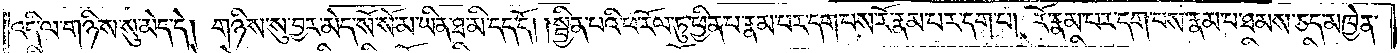འདི་ལ་གཉིས་སུ་མེད་དེ། གཉིས་སུ་བྱར་མེད་སོ་སོ་མ་ཡིན་ཐ་མི་དད་དོ། །སྦྱིན་པའི་ཕ་རོལ་ཏུ་ཕྱིན་པ་རྣམ་པར་དག་པས་རོ་རྣམ་པར་དག་པ། རོ་རྣམ་པར་དག་པས་རྣམ་པ་ཐམས་ཅད་མཁྱེན་
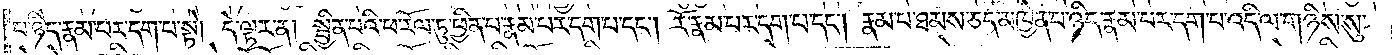པ་ཉིད་རྣམ་པར་དག་པ་སྟེ། དེ་ལྟར་ན། སྦྱིན་པའི་ཕ་རོལ་ཏུ་ཕྱིན་པ་རྣམ་པར་དག་པ་དང༌། རོ་རྣམ་པར་དག་པ་དང༌། རྣམ་པ་ཐམས་ཅད་མཁྱེན་པ་ཉིད་རྣམ་པར་དག་པ་འདི་ལ་གཉིས་སུ་
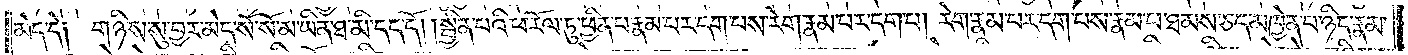མེད་དེ༑ གཉིས་སུ་བྱར་མེད་སོ་སོ་མ་ཡིན་ཐ་མི་དད་དོ། །སྦྱིན་པའི་ཕ་རོལ་ཏུ་ཕྱིན་པ་རྣམ་པར་དག་པས་རེག་རྣམ་པར་དག་པ། རེག་རྣམ་པར་དག་པས་རྣམ་པ་ཐམས་ཅད་མཁྱེན་པ་ཉིད་རྣམ་
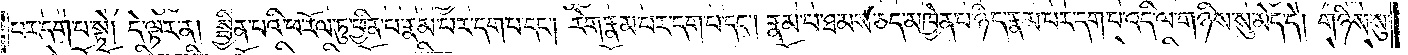པར་དག་པ་སྟེ། དེ་ལྟར་ན། སྦྱིན་པའི་ཕ་རོལ་ཏུ་ཕྱིན་པ་རྣམ་པར་དག་པ་དང༌། རེག་རྣམ་པར་དག་པ་དང༌། རྣམ་པ་ཐམས་ཅད་མཁྱེན་པ་ཉིད་རྣམ་པར་དག་པ་འདི་ལ་གཉིས་སུ་མེད་དེ། གཉིས་སུ་
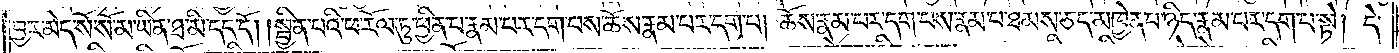བྱར་མེད་སོ་སོ་མ་ཡིན་ཐ་མི་དད་དོ། །སྦྱིན་པའི་ཕ་རོལ་ཏུ་ཕྱིན་པ་རྣམ་པར་དག་པས་ཆོས་རྣམ་པར་དག་པ། ཆོས་རྣམ་པར་དག་པས་རྣམ་པ་ཐམས་ཅད་མཁྱེན་པ་ཉིད་རྣམ་པར་དག་པ་སྟེ། དེ་
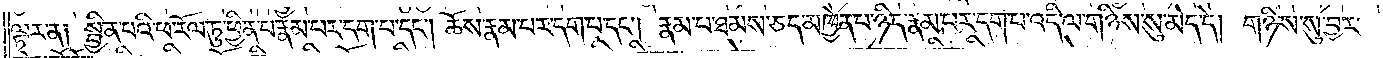ལྟར་ན༑ སྦྱིན་པའི་ཕ་རོལ་ཏུ་ཕྱིན་པ་རྣམ་པར་དག་པ་དང༌། ཆོས་རྣམ་པར་དག་པ་དང༌། རྣམ་པ་ཐམས་ཅད་མཁྱེན་པ་ཉིད་རྣམ་པར་དག་པ་འདི་ལ་གཉིས་སུ་མེད་དེ། གཉིས་སུ་བྱར་
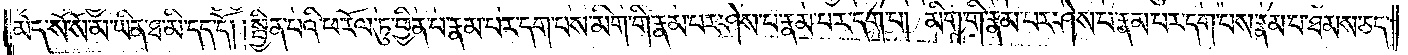མེད་སོ་སོ་མ་ཡིན་ཐ་མི་དད་དོ། །སྦྱིན་པའི་ཕ་རོལ་ཏུ་ཕྱིན་པ་རྣམ་པར་དག་པས་མིག་གི་རྣམ་པར་ཤེས་པ་རྣམ་པར་དག་པ། མིག་གི་རྣམ་པར་ཤེས་པ་རྣམ་པར་དག་པས་རྣམ་པ་ཐམས་ཅད་
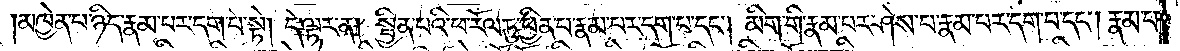མཁྱེན་པ་ཉིད་རྣམ་པར་དག་པ་སྟེ། དེ་ལྟར་ན། སྦྱིན་པའི་ཕ་རོལ་ཏུ་ཕྱིན་པ་རྣམ་པར་དག་པ་དང༌། མིག་གི་རྣམ་པར་ཤེས་པ་རྣམ་པར་དག་པ་དང༌། རྣམ་པ་
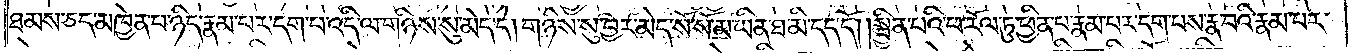ཐམས་ཅད་མཁྱེན་པ་ཉིད་རྣམ་པར་དག་པ་འདི་ལ་གཉིས་སུ་མེད་དེ། གཉིས་སུ་བྱར་མེད་སོ་སོ་མ་ཡིན་ཐ་མི་དད་དོ། །སྦྱིན་པའི་ཕ་རོལ་ཏུ་ཕྱིན་པ་རྣམ་པར་དག་པས་རྣ་བའི་རྣམ་པར་
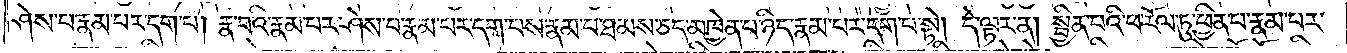ཤེས་པ་རྣམ་པར་དག་པ། རྣ་བའི་རྣམ་པར་ཤེས་པ་རྣམ་པར་དག་པས་རྣམ་པ་ཐམས་ཅད་མཁྱེན་པ་ཉིད་རྣམ་པར་དག་པ་སྟེ། དེ་ལྟར་ན། སྦྱིན་པའི་ཕ་རོལ་ཏུ་ཕྱིན་པ་རྣམ་པར་
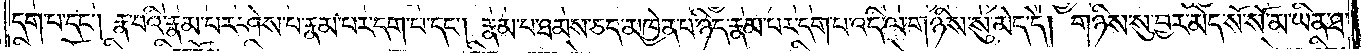དག་པ་དང༌། རྣ་བའི་རྣམ་པར་ཤེས་པ་རྣམ་པར་དག་པ་དང༌། རྣམ་པ་ཐམས་ཅད་མཁྱེན་པ་ཉིད་རྣམ་པར་དག་པ་འདི་ལ་གཉིས་སུ་མེད་དེ། གཉིས་སུ་བྱར་མེད་སོ་སོ་མ་ཡིན་ཐ་
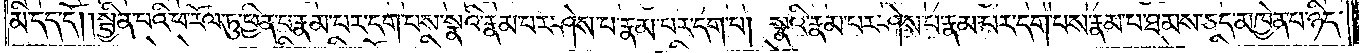མི་དད་དོ། །སྦྱིན་པའི་ཕ་རོལ་ཏུ་ཕྱིན་པ་རྣམ་པར་དག་པས་སྣའི་རྣམ་པར་ཤེས་པ་རྣམ་པར་དག་པ། སྣའི་རྣམ་པར་ཤེས་པ་རྣམ་པར་དག་པས་རྣམ་པ་ཐམས་ཅད་མཁྱེན་པ་ཉིད་
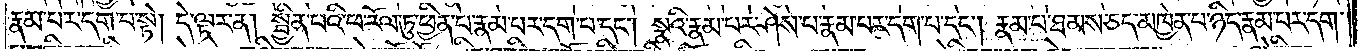རྣམ་པར་དག་པ་སྟེ། དེ་ལྟར་ན། སྦྱིན་པའི་ཕ་རོལ་ཏུ་ཕྱིན་པ་རྣམ་པར་དག་པ་དང༌། སྣའི་རྣམ་པར་ཤེས་པ་རྣམ་པར་དག་པ་དང༌། རྣམ་པ་ཐམས་ཅད་མཁྱེན་པ་ཉིད་རྣམ་པར་དག་
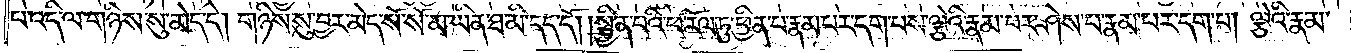པ་འདི་ལ་གཉིས་སུ་མེད་དེ། གཉིས་སུ་བྱར་མེད་སོ་སོ་མ་ཡིན་ཐ་མི་དད་དོ། །སྦྱིན་པའི་ཕ་རོལ་ཏུ་ཕྱིན་པ་རྣམ་པར་དག་པས་ལྕེའི་རྣམ་པར་ཤེས་པ་རྣམ་པར་དག་པ། ལྕེའི་རྣམ་
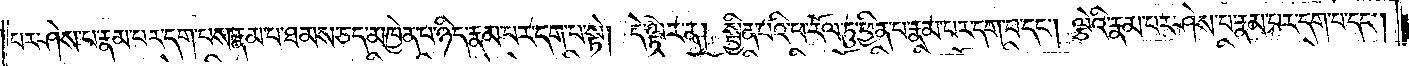པར་ཤེས་པ་རྣམ་པར་དག་པས་རྣམ་པ་ཐམས་ཅད་མཁྱེན་པ་ཉིད་རྣམ་པར་དག་པ་སྟེ། དེ་ལྟར་ན། སྦྱིན་པའི་ཕ་རོལ་ཏུ་ཕྱིན་པ་རྣམ་པར་དག་པ་དང༌། ལྕེའི་རྣམ་པར་ཤེས་པ་རྣམ་པར་དག་པ་དང༌།
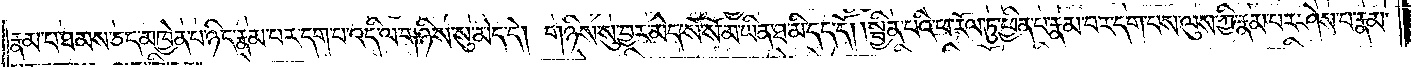རྣམ་པ་ཐམས་ཅད་མཁྱེན་པ་ཉིད་རྣམ་པར་དག་པ་འདི་ལ་གཉིས་སུ་མེད་དེ། གཉིས་སུ་བྱར་མེད་སོ་སོ་མ་ཡིན་ཐ་མི་དད་དོ། །སྦྱིན་པའི་ཕ་རོལ་ཏུ་ཕྱིན་པ་རྣམ་པར་དག་པས་ལུས་ཀྱི་རྣམ་པར་ཤེས་པ་རྣམ་
